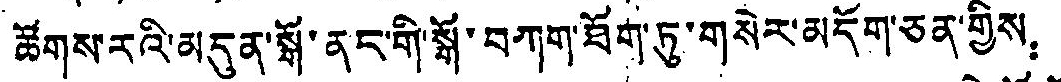ཚོགས་རའི་མདུན་སྒོ་ནང་གི་སྒོ་བཀག་ཐོག་ཏུ་གསེར་མདོག་ཅན་གྱིས：
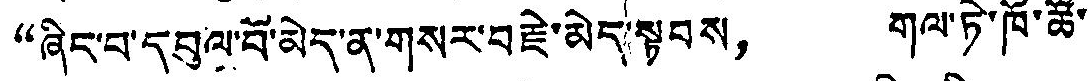“ཞིང་བ་དབུལ་བོ་མེད་ན་གསར་བརྗེ་མེད་སྟབས， གལ་ཏེ་ཁོ་ཚོ་
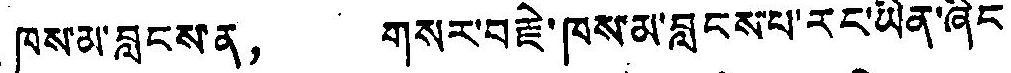ཁས་མ་བླངས་ན， གསར་བརྗེ་ཁས་མ་བླངས་པ་རང་ཡིན་ཞིང
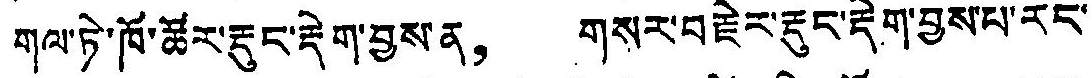གལ་ཏེ་ཁོ་ཚོར་རྡུང་རྡེག་བྱས་ན， གསར་བརྗེར་རྡུང་རྡེག་བྱས་པ་རང་
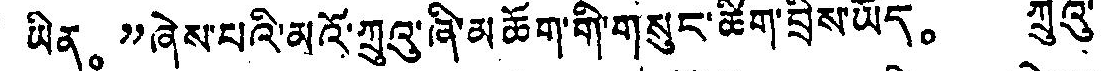ཡིན。”ཞེས་པའི་མའོ་ཀྲུའུ་ཞི་མཆོག་གི་གསུང་ཚིག་བྲིས་ཡོད。 ཀྲུའུ་
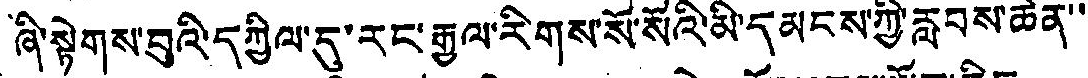ཞི་སྟེགས་བུའི་དཀྱིལ་དུ་རང་རྒྱལ་རིགས་སོ་སོའི་མི་དམངས་ཀྱི་རླབས་ཆེན་་
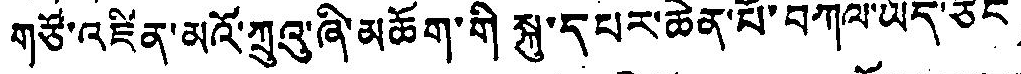གཙོ་འཛིན་མའོ་ཀྲུའུ་ཞི་མཆོག་གི སྐུ་དཔར་ཆེན་པོ་བཀལ་ཡོད་ཅིང，
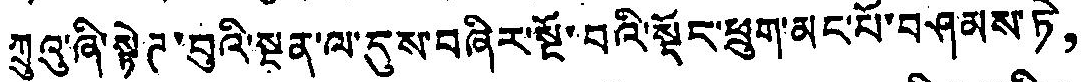ཀྲུའུ་ཞི་སྟེཊ་བུའི་སྔན་ལ་དུས་བཞིར་སྔོ་བའི་སྡོང་ཕྲུག་མང་པོ་བཤམས་ཏེ，
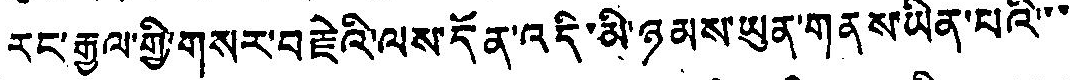རང་རྒྱལ་གྱི་གསར་བརྗེའི་ལས་དོན་འདི་མི་ཉམས་ཡུན་གནས་ཡིན་པའི་་་
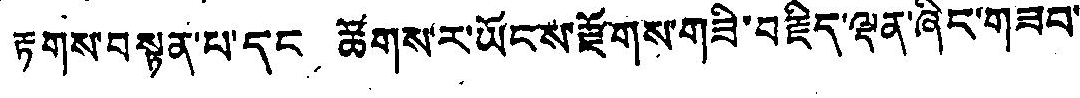རྟགས་བསྟན་པ་དང ཚོགས་ར་ཡོངས་རྫོགས་གཟི་བརྗིད་ལྡན་ཞིང་གཟབ་
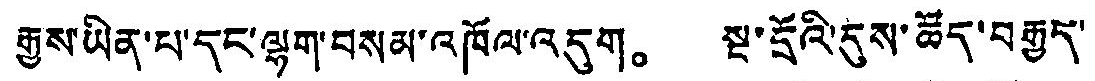རྒྱས་ཡིན་པ་དང་ལྷག་བསམ་འཁོལ་འདུག。 སྔ་དྲོའི་དུས་ཚོད་བརྒྱད་
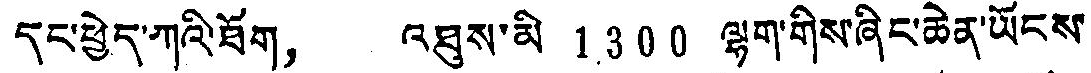དང་ཕྱེད་ཀའི་ཐོག， འཐུས་མི 1300 ལྷག་གིས་ཞིང་ཆེན་ཡོངས་
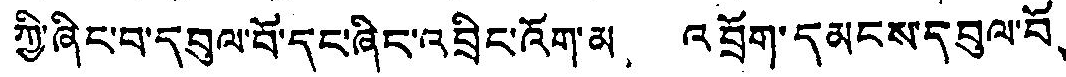ཀྱི་ཞིང་བ་དབུལ་བོ་དང་ཞིང་འབྲིང་འོག་མ འབྲོག་དམངས་དབུལ་བོ、
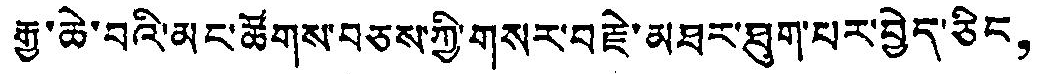རྒྱ་ཆེ་བའི་མང་ཚོགས་བཅས་ཀྱི་གསར་བརྗེ་མཐར་ཐུག་པར་བྱེད་ཅིང，
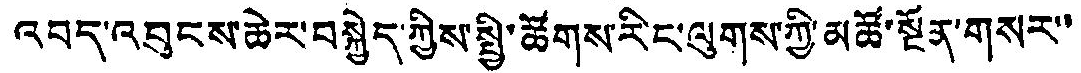འབད་འབུངས་ཆེར་བསྐྱེད་ཀྱིས་སྤྱི་ཚོགས་རིང་ལུགས་ཀྱི་མཚོ་སྔོན་གསར་་
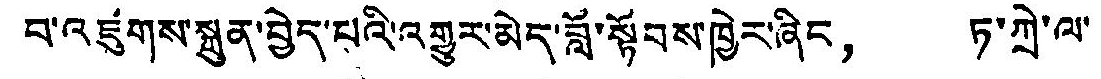བ་འཛུགས་སྐྲུན་བྱེད་པའི་འགྱུར་མེད་བློ་སྟོབས་ཁྱེར་ཞིང， ཏ་ཀྲེ་ལ་
